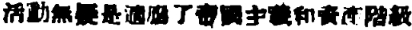活動無疑是適應了帝國主義和資產階級
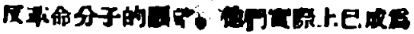反革命分子的願望。他們實際上已成爲
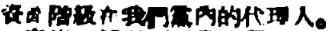資產階級在我們黨內的代理人。
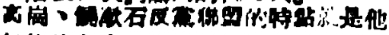高崗、饒漱石反黨聯盟的特點就是他
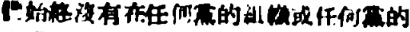們始終沒有在任何黨的組織或任何黨的
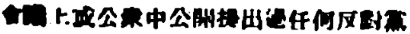會議上或公衆中共開提出過任何反對黨
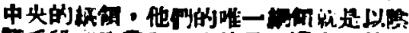中央的綱領，他們的唯一綱領就是以陰
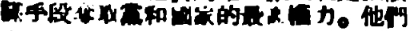謀手段奪取黨和國家的最高權力。他們
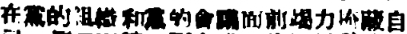在黨的組織和黨的會議面前竭力掩藏自
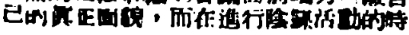己的眞正面貌，而在進行陰謀活動的時
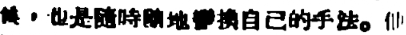候，也是隨時隨地變換自己的手法。他
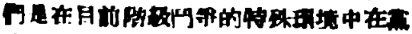們是在目前階級鬥爭的特殊環境中在黨
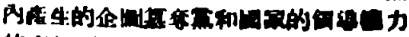內產生的企圖篡奪黨和國家的領導權力
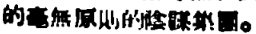的毫無原則的陰謀集團。
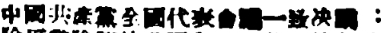中國共產黨全國代表會議一致決議：
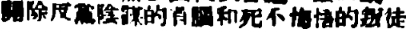開除反黨陰謀的首腦和死不悔悟的叛徒
